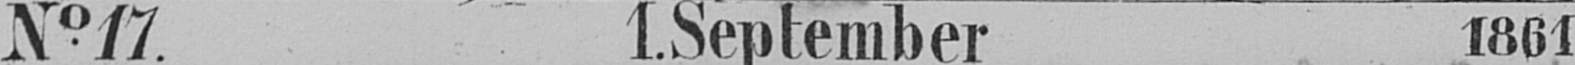N:o 17. 1. September 1861
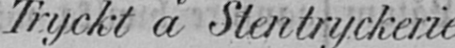Tryckt å Stentryckeriet i Åbo.
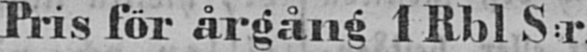Pris för årgång 1 Rbl S:r.
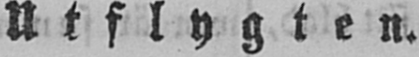U t f l y g t e n.
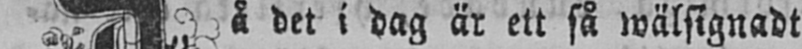Då det i dag är ett så wälsignadt
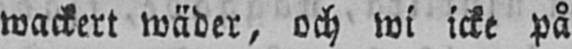wackert wäder, och wi icke på
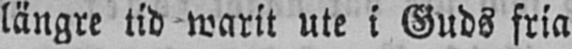längre tid warit ute i Guds fria
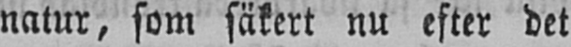natur, som säkert nu efter det
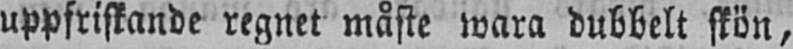uppfriskande regnet måste wara dubbelt skön,
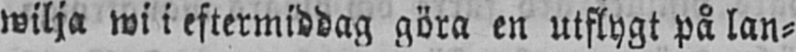wilja wi i eftermiddag göra en utflygt på lan-
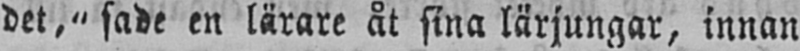det," sade en lärare åt sina lärjungar, innan
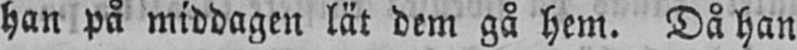han på middagen lät dem gå hem. Då han
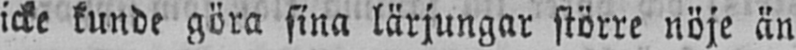icke kunde göra sina lärjungar större nöje än
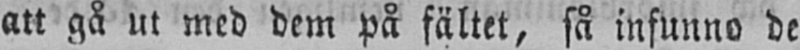att gå ut med dem på fältet, så infunno de
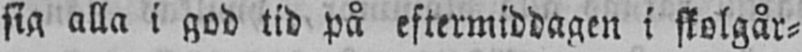sig alla i god tid på eftermiddagen i skolgår-
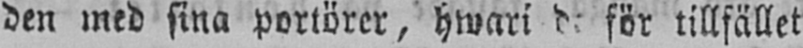den med sina portörer, hwari de för tillfället
